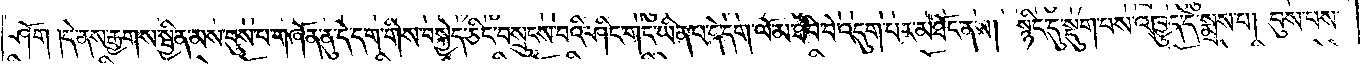ཤོག །དེ་ནས་རྒྱགས་སྦྱིན་མས་བུས་པ་གཞོན་ནུ་དེ་དག་གིས་བསྐྱེད་ཅིང་བསྲུངས་བའི་ཤིང་གང་ཡིན་པ་དེ་དག་ལོ་མ་ཐིབ་བེ་འདུག་པར་མཐོང་ནས། སྙིང་དུ་སྡུག་པས་འཁྱུད་དེ་སྨྲས་པ། བུས་པས་
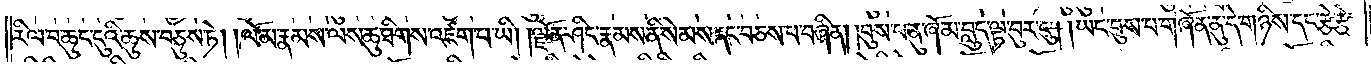རིལ་བ་ཆུང་དུའི་ཆུས་བཅུས་ཏེ། །ལོ་མ་རྣམས་ལས་ཆུ་ཐིགས་འཛག་པ་ཡི། །ལྗོན་ཤིང་རྣམས་ནི་སེམས་དང་བཅས་པ་བཞིན། །བུས་པ་ནུ་ཞོ་མ་བླུད་ལྟ་བུར་ངུ༌། །ཡང་བུས་པ་གཞོན་ནུ་དེ་གཉིས་དང་རྩེ་རྩེ་
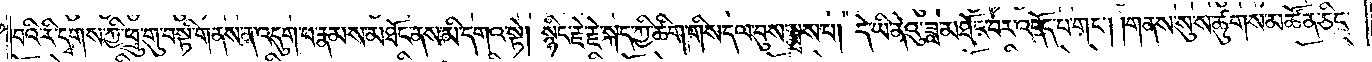བའི་རི་དྭགས་ཀྱི་ཕྲུ་གུ་བསྟི་གནས་ན་འདུག་པ་རྣམས་མཐོང་ནས་མི་དགའ་སྟེ། སྙིང་རྗེ་རྗེ་སྐད་ཀྱི་ཚིག་གིས་དལ་བུས་སྨྲས་པ། དེ་ཡི་ནེའུ་ཟླ་མཐོང་བར་འདོད་པ་གང༌། །གནས་སུ་ས་ཚུགས་མཚོན་ཅིང་
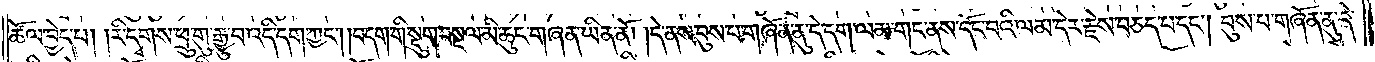ཚོལ་བྱེད་པ། །རི་དྭགས་ཕྲུ་གུ་རྒྱུ་བ་འདི་དག་ཀྱང༌། །བདག་གི་སྡུག་བསྔལ་མི་ཆུང་གཞན་ཡིན་ནོ། །དེ་ནས་བུས་པ་གཞོན་ནུ་དེ་དག་ལམ་གང་ནས་དོང་བའི་ལམ་དེར་རྗེས་བཅད་པ་དང༌། བུས་པ་གཞོན་ནུ་དེ་
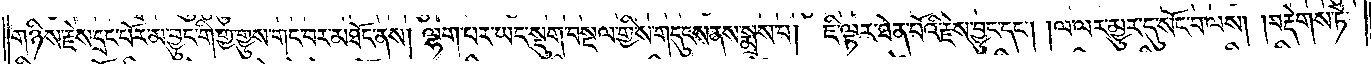གཉིས་རྗེས་དྲང་པོར་མ་བྱུང་གི་གྱ་གྱུས་གང་བར་མཐོང་ནས། ལྷག་པར་ཡང་སྡུག་བསྔལ་གྱིས་གདུངས་ནས་སྨྲས་པ། ཇི་ལྟར་ཐེན་པོའི་རྗེས་བྱུང་དང༌། །ལ་ལར་མྱུར་དུ་སོང་བ་ལས། །བརྡེགས་ཏེ་
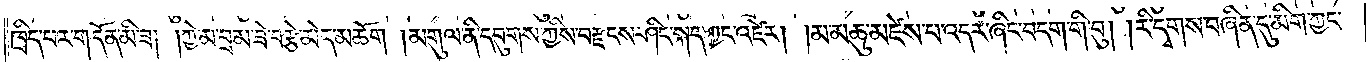ཁྲིད་པར་གདོན་མི་ཟ། །ཀྱེ་མ་བྲམ་ཟེ་བརྩེ་མེད་མཆོག །མགུལ་ནི་དབུགས་ཀྱིས་བརྫངས་ཤིང་སྐད་ཀྱང་འཛེར། །མ་མཆུ་མཛེས་པ་འདར་ཞིང་བདག་གི་བུ། །རི་དྭགས་བཞིན་དུ་མིག་ཀྱང་
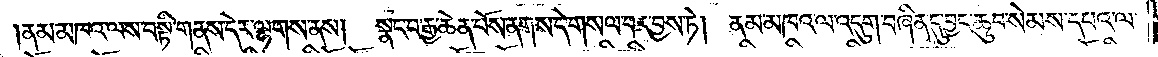ནམ་མཁའ་ལས་བསྟི་གནས་དེར་ལྷགས་ནས། སྣང་བ་རྒྱ་ཆེན་པོས་ནགས་དེ་གསལ་བར་བྱས་ཏེ། ནམ་མཁའ་ལ་འདུག་བཞིན་དུ་བྱང་ཆུབ་སེམས་དཔའ་ལ་
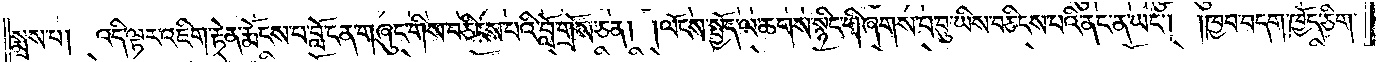སྨྲས་པ། འདི་ལྟར་འཇིག་རྟེན་རྨོངས་པ་བློ་ངན་གཞུང་གིས་བཅིངས་པའི་བློ་གྲོས་ཅན། །ལོངས་སྤྱོད་ལ་ཆགས་སྙིང་གི་ཞགས་པ་བུ་ཡིས་བཅིངས་པའི་ནང་ན་ཡང༌། །ཁྱབ་བདག་ཁྱོད་ཅིག་
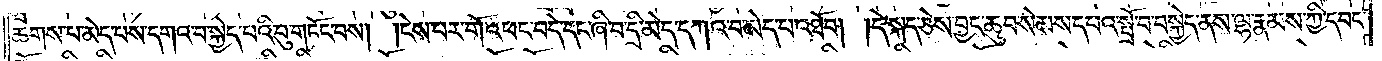ཆགས་པ་མེད་པས་དགའ་བ་སྐྱེད་པའི་བུ་གཏོང་བས། །ངེས་པར་གོ་འཕང་བདེ་དང་ཞི་བ་དྲི་མེད་དཀའ་བ་མེད་པ་འཐོབ། །དེ་སྐད་ཅེས་བྱང་ཆུབ་སེམས་དཔའ་སྤྲོ་བ་བསྐྱེད་ནས་ལྷ་རྣམས་ཀྱི་དབང་
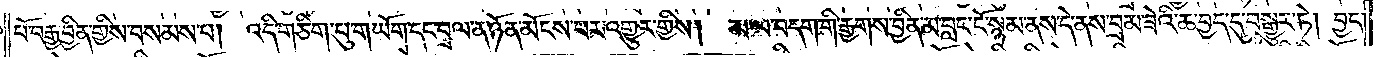པོ་བརྒྱ་བྱིན་གྱིས་བསམས་པ། འདི་གཅིག་པུ་གཡོག་དང་བྲལ་ན་ཉོན་མོངས་པར་འགྱུར་གྱིས། མ་ལ་བདག་གི་རྒྱགས་བྱིན་མ་བླང་ངོ་སྙམ་ནས་དེ་ནས་བྲམ་ཟེའི་ཆ་བྱད་དུ་བསྒྱུར་ཏེ། བྱང་
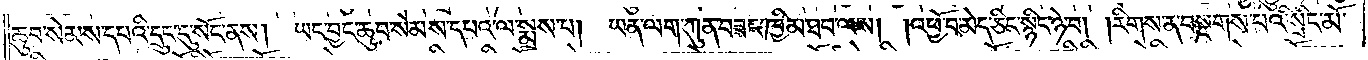ཆུབ་སེམས་དཔའི་དྲུང་དུ་སོང་ནས། ཡང་བྱང་ཆུབ་སེམས་དཔའ་ལ་སྨྲས་པ། ཡན་ལག་ཀུན་བཟང་ཁྱིམ་ཐབ་ལས། །འཕྱོ་བ་མེད་ཅིང་སྙིང་ཉེ་བ། །རིགས་ན་བསྔགས་པའི་སྲིང་མོ་
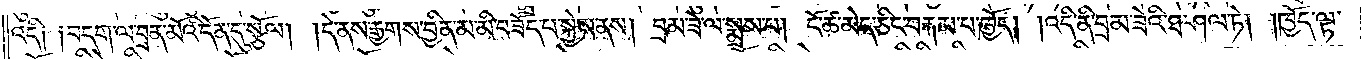འདི༑ ༑བདག་ལ་བྲན་མོའི་དོན་དུ་སྩོལ། །དེ་ནས་རྒྱགས་བྱིན་མ་མི་བཟོད་པ་སྐྱེས་ནས། བྲམ་ཟེ་ལ་སྨྲས་པ། ངོ་ཚ་མེད་ཅིང་བརྐམ་པ་ཁྱོད། །འདི་ནི་བྲམ་ཟེའི་ཐ་ཤལ་ཏེ། །ཁྱོད་ལྟ་
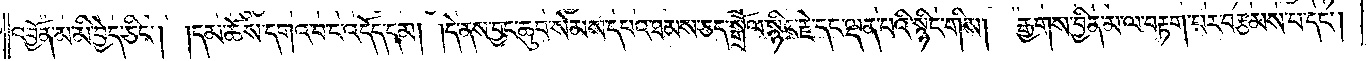འབྱོན་མ་མི་བྱེད་ཅིང༌། །དམ་ཆོས་དགའ་བར་འདོད་དམ། །དེ་ནས་བྱང་ཆུབ་སེམས་དཔའ་ཐམས་ཅད་སྒྲོལ་སྙིང་རྗེ་དང་ལྡན་པའི་སྙིང་གིས།<gap>རྒྱགས་བྱིན་མ་ལ་བརྟག་པར་བརྩམས་པ་དང༌།
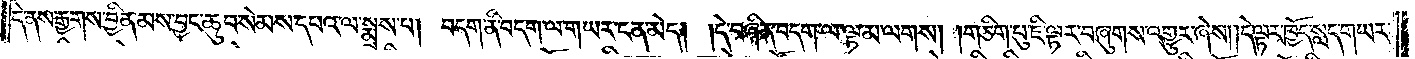དེ་ནས་རྒྱགས་བྱིན་མས་བྱང་ཆུབ་སེམས་དཔའ་ལ་སྨྲས་པ། བདག་ནི་བདག་ལ་གཡར་ངན་མེད། །དེ་བཞིན་བདག་ལ་ལྟ་མ་ལགས། །གཅིག་པུ་ཇི་ལྟར་བཞུགས་འགྱུར་ཞེས། །དེ་ལྟར་ཁྱོད་སླད་གཡར་
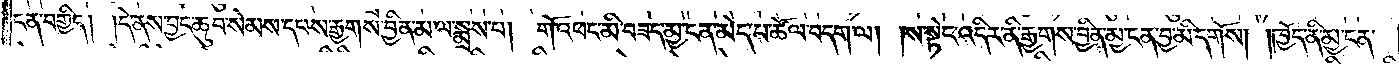ངན་བགྱིད། །དེ་ནས་བྱང་ཆུབ་སེམས་དཔས་རྒྱགས་བྱིན་མ་ལ་སྨྲས་པ། གོ་འཕང་མི་བཟད་མྱ་ངན་མེད་པ་ཚོལ་བདག་ལ། །ས་སྟེང་འདིར་ནི་རྒྱགས་བྱིན་མྱ་ངན་བྱ་མི་དགོས། །ཁྱོད་ནི་མྱ་ངན་
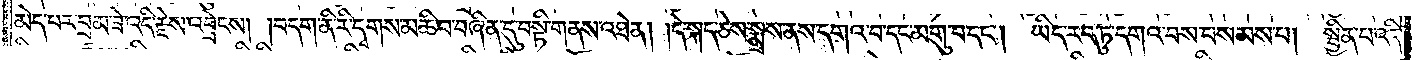མེད་པར་བྲམ་ཟེ་འདི་རྗེས་འབྲེངས། །བདག་ནི་རི་དྭགས་མཆི་བ་བཞིན་དུ་བསྟི་གནས་འཐེན། །དེ་སྐད་ཅེས་སྨྲས་ནས་དགའ་བ་དང་མགུ་བ་དང༌། ཡིད་རབ་ཏུ་དགའ་བས་བསམས་པ། སྦྱིན་པ་འདི་
